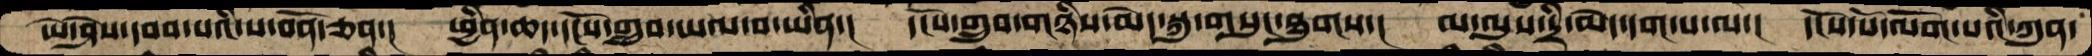ཡེ་ཤེས་དབབ་པའི་ས་བོན་ཅན་།  ཕྱིན་ཆད་དངོས་གྲུབ་ཡལ་བ་ཡིན་།  དངོས་གྲུབ་གཉིས་མེད་སྐུ་གསུང་ཐུགས་།  མ་ལུས་དྲི་མེད་དག་པ་ལ་།  དངོས་པོ་ལོག་པའི་ཀུན་
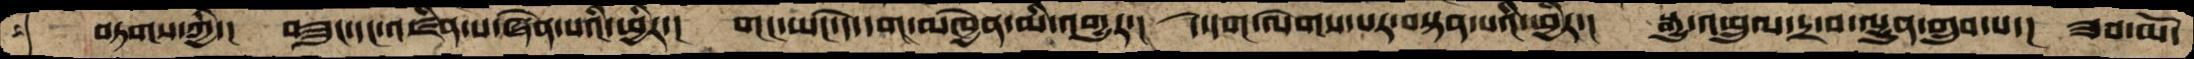བཏགས་ཀྱི་། བཟུང་དང་འཛིན་པ་ཞེན་པའི་ཕྱིར་། གང་ཡང་དེ་དག་མཁྱེན་མི་འགྱུར་། དེ་དག་ལེགས་པར་བསྟན་པའི་ཕྱིར་། སྒྱུ་འཕྲུལ་དྲ་བ་ལྷུན་གྲུབ་པ་། ཟབ་མོ་
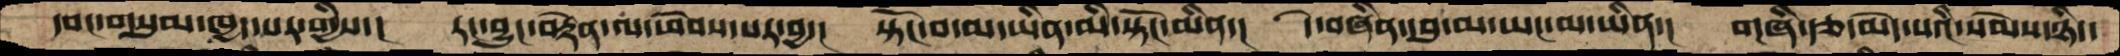དབང་གསུམ་ཁྱད་པར་གྱིས་།  རང་བྱུང་བརྟེན་ལ་ཕེབས་པར་བྱ་།  སྟོང་བ་མ་ཡིན་མི་སྟོང་མིན་།  དེ་བཞིན་དབུ་མ་ཡང་མ་ཡིན་།  གཞི་རྩ་མེད་པའི་སེམས་ཉིད་
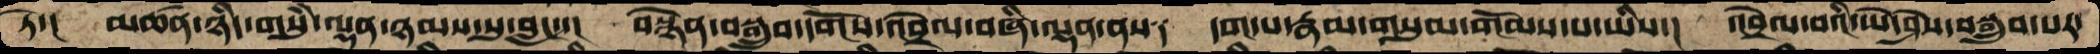ཏེ་།  མཚན་ཉིད་གསུཾ་ལྡན་ཉམས་སུ་བླང་་།  བསྙེན་བསྒྲུབ་དགོས་འབྲེལ་བཞི་ལྡན་ནས་།  དག་པ་རྣམ་གསུམ་གོམས་པ་ཡིས་།  འབྲེལ་བའི་ཡེ་ཤེས་བསྒྲུབ་པར་
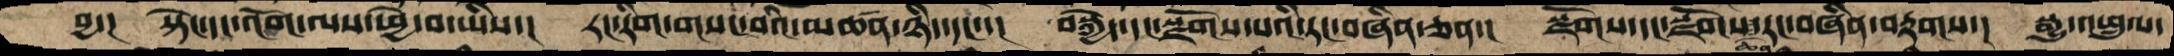བྱ་། སྟེང་དང་འོག་ལས་ཕྱེ་བ་ཡིས་། རང་རིག་གསང་བའི་མཚན་ཉིད་དང་་། བསྐྱེད་དང་སྫོགས་པའི་རང་བཞིན་ཅན་། སྫོགས་དང་སྫོགས་ཆེན་རང་བཞིན་བརྟགས་། སྒྱུ་འཕྲུལ་
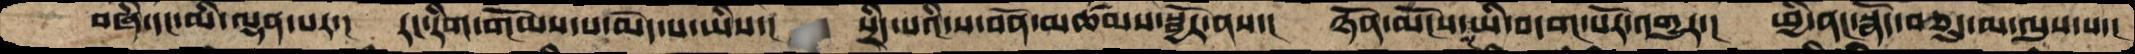བཞི་དང་མི་ལྡན་པར་། རང་རིག་གོམས་པ་མེད་པ་ཡིས་། སྲིད་པའི་ས་བོན་མཚམས་སྦྱོར་ནས་། ཉོན་མོངས་ལྔ་ཡི་བདག་པོར་འགྱུར་། ཕྱི་ནང་སྣོད་བཅུད་མ་ལུས་པ་།
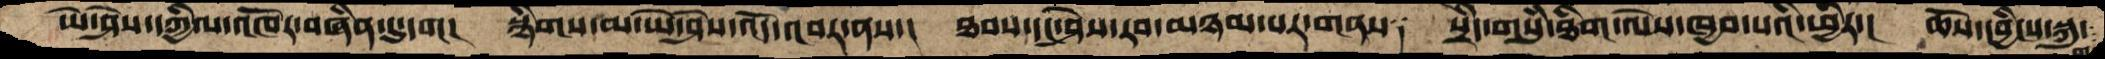ཡེ་ཤེས་དཀྱིལ་འཁོར་བཞིན་དུ་དག།  སྙིགས་མ་ཡེ་ཤེས་འོད་འབར་ནས་།  ཐབས་དང་ཤེས་རབ་མཉམ་པར་གནས༑  སྲིད་གསུཾ་ཐིག་ལེས་ཁྱབ་པའི་ཕྱིར་།  ཆོས་དབྱིངས་སྐུ་
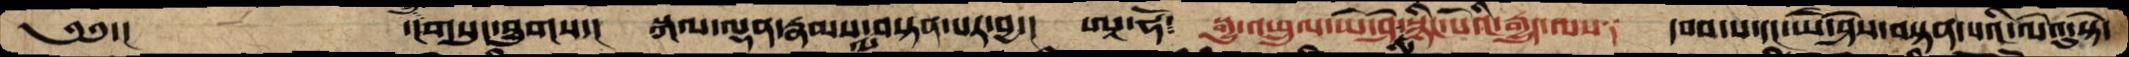༄༅་།    ་།གསུང་ཐུགས་། སྐལ་ལྡན་རྣམས་ལ་བསྟན་པར་བྱ་།  ཨཱ་ཧོ༴  སྒྱུ་འཕྲུལ་ཡེ་ཤེས་སྙིང་པོའི་རྒྱུད་ལས་། དབབ་པ་དང་ཡེ་ཤེས་བསྟན་པའི་ལེའུ་སྟེ་
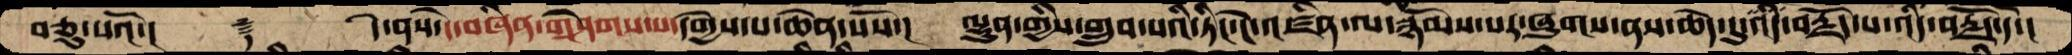བཅུ་པའོ་།  ࿑    དེ་ནས་དེ་བཞིན་གཤེགས་པ་དགྱེས་པ་ཆེན་པོས་།  ལྷུན་གྱིས་གྲུབ་པའི་ཏིང་ངེ་འཛིན་ལ་སྙོམས་པར་ཞུགས་ནས་ཆེད་དུ་འདི་བརྗོད་པ་འདི་བརྗོད་དོ་།
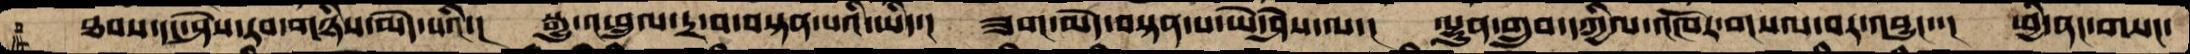ཐབས་དང་ཤེས་རབ་གཉིས་མེད་པའི་། སྒྱུ་འཕྲུལ་དྲ་བ་བསྟན་པའི་ཡིད་། ཟག་མེད་བསྟན་པ་ཡེ་ཤེས་ལ་། ལྷུན་གྲུབ་དཀྱིལ་འཁོར་གསལ་བར་འབྱུང་་། ཕྱི་ནང་གསང་
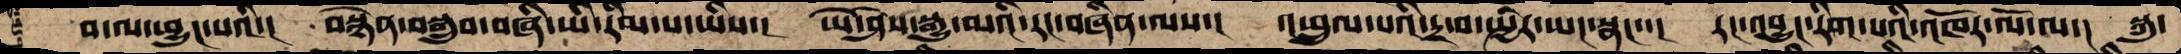࿑  བ་ལ་ཕྱུང་པའི་།  བསྙེན་བསྒྲུབ་བཞི་ཡི་རིམ་པ་ཡིས་།  ཡེ་ཤེས་སྒྱུ་མའི་རང་བཞིན་ལས་།  འཕྲུལ་པའི་དྲ་བ་སྤྱིར་ཡང་སྣང་་།  རང་འབྱུང་རིག་པའི་འཁོར་ལོ་ལ་།  སྐུ་
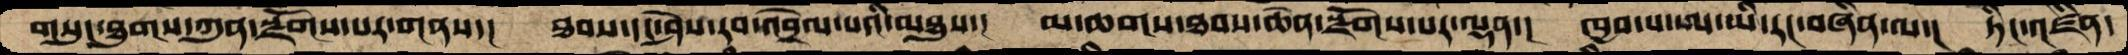གསུང་ཐུགས་ཀུན་སྫོགས་པར་གནས་།  ཐབས་དང་ཤེས་རབ་འབྲེལ་པའི་མཐུས་།  མ་ཆགས་ཐབས་ཆེན་སྫོགས་པར་ལྡན་།  ཁྱབ་པ་ཨ་ཡི་རང་བཞིན་ལ་།  ཏིང་འཛིན་
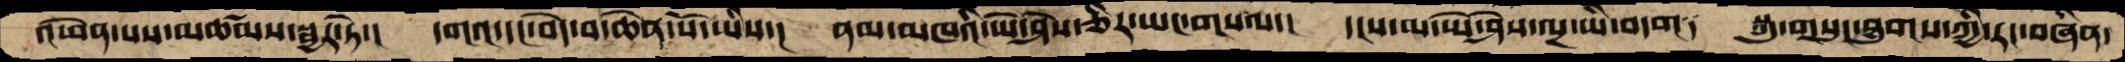འཕེན་པས་མཚམས་སྦྱར་ཏེ་།  དགའ་དང་བདེ་བ་ཆེན་པོ་ཡིས་།  ནམ་མཁའི་ཡེ་ཤེས་ཅིར་ཡང་གསལ་།  དངས་མ་ཡེ་ཤེས་ལྔ་ཡི་བདག༑  སྐུ་གསུང་ཐུགས་ཀྱི་རང་བཞིན་
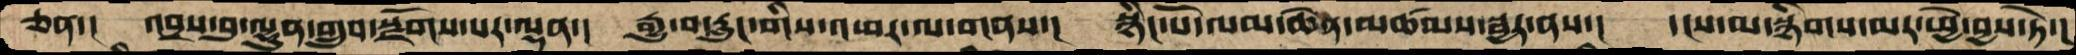ཅན་།  འབྲས་བུ་ལྷུན་གྲུབ་སྫོགས་པར་ལྡན་།  རྒྱུ་བ་རླུང་གིས་འཕར་ལ་གནས་།  སྙིང་པོ་ལམ་ཆེན་མཚམས་སྦྱར་ནས་།  དངས་མ་སྙིགས་མར་ཕྱེ་བྱས་ཏེ་།
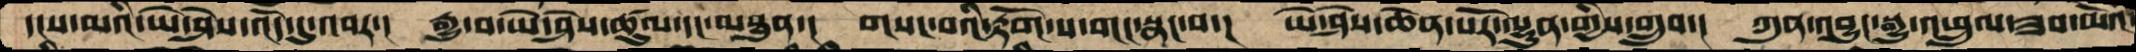དངས་མའི་ཡེ་ཤེས་འོད་དུ་འབར་།  རྒྱུ་བ་ཡེ་ཤེས་ཚུལ་དང་མཐུན་།  གསང་བའི་རྟོག་པ་གང་སྣང་བ་།  ཡེ་ཤེས་ཆེན་པོར་ལྷུན་གྱིས་གྲུབ་།  ཀུན་འབྱུང་སྒྱུ་འཕྲུལ་ཟབ་མོའ
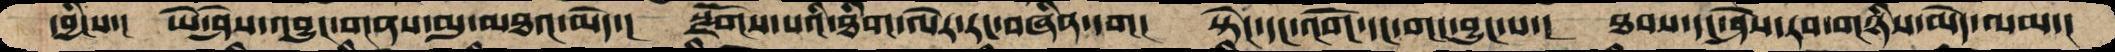དབྱིངས་།  ཡེ་ཤེས་འབྱུང་གནས་མུ་མཐའ་མེད་།  སྫོགས་པའི་ཐིག་ལེར་རང་བཞིན་དག།  སྟེང་དང་འོག་དང་གང་བྱུང་པ་།  ཐབས་དང་ཤེས་རབ་གཉིས་མེད་ལམ་།
